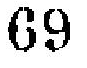69
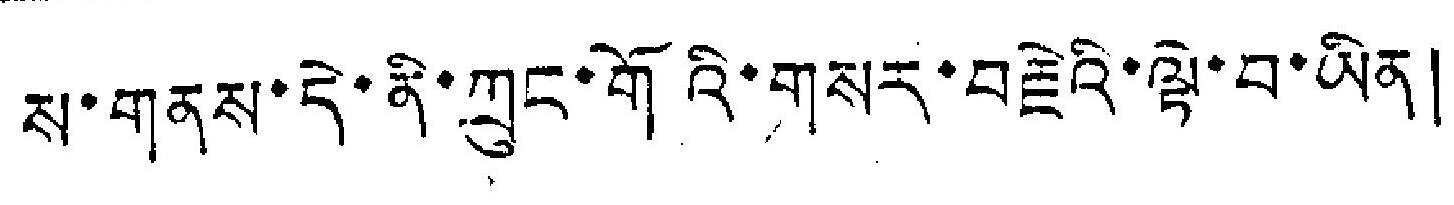ས་གནས་དེ་ནི་ཀྲུང་གོའི་གསར་བརྗེའི་ལྟེ་བ་ཡིན།
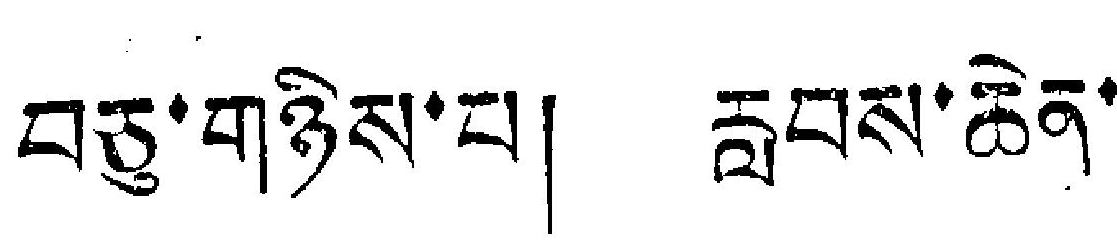བཅུ་གཉིས་པ། རླབས་ཆེན་
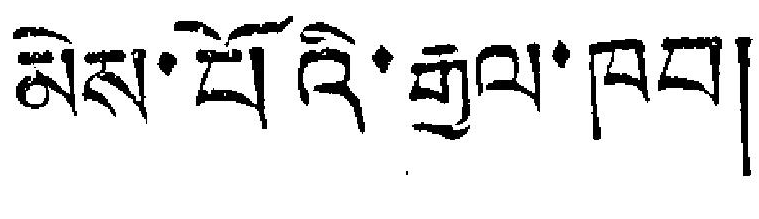མེས་པོའི་རྒྱལ་ཁབ།
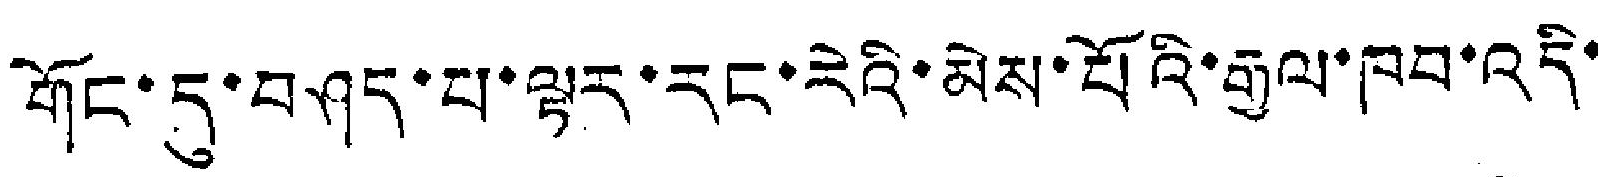གོང་དུ་བཤད་པ་ལྟར་རང་རེའི་མེས་པོའི་རྒྱལ་ཁབ་འདི་
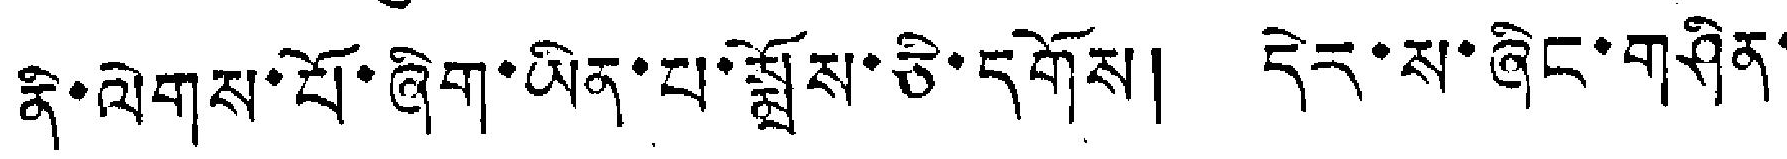ནི་ལེགས་པོ་ཞིག་ཡིན་པ་སྨྲོས་ཅི་དགོས། དེར་ས་ཞིང་གཤིན་
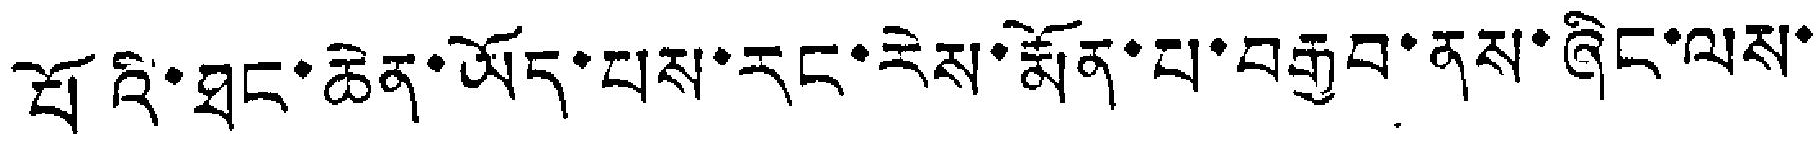པོའི་ཐང་ཆེན་ཡོད་པས་རང་རེས་རྨོན་པ་བརྒྱབ་ནས་ཞིང་ལས་
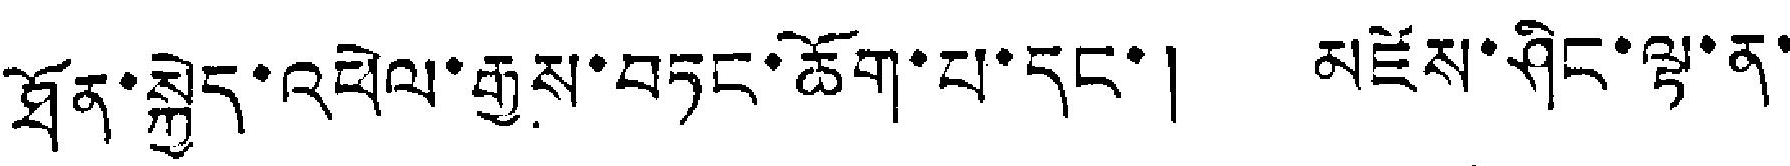ཐོན་སྐྱེད་འཕེལ་རྒྱས་བཏང་ཆོག་པ་དང་། མཛེས་ཤིང་ལྟ་ན་
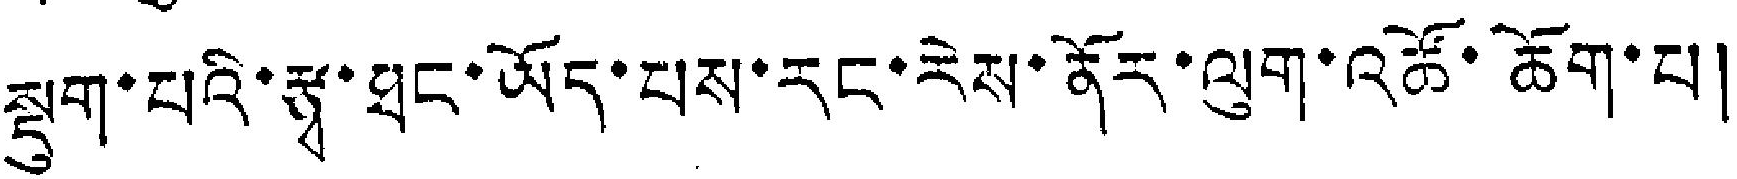སྡུག་པའི་རྩྭ་ཐང་ཡོད་པས་རང་རེས་ནོར་ལུག་འཚོ་ཆོག་པ།
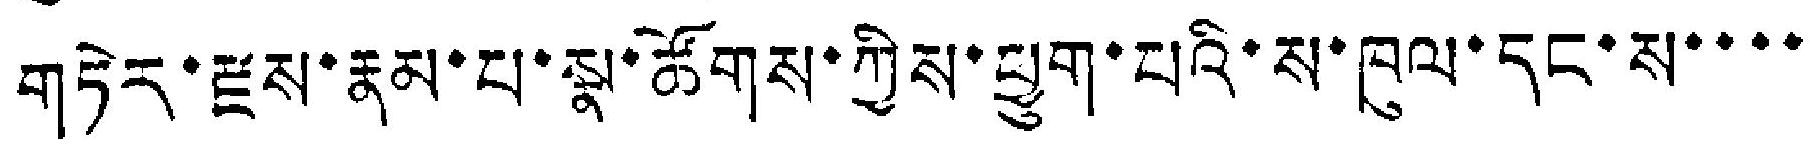གཏེར་རྫས་རྣམ་པ་སྣ་ཚོགས་ཀྱིས་ཕྱུག་པའི་ས་ཁུལ་དང་ས་་་་
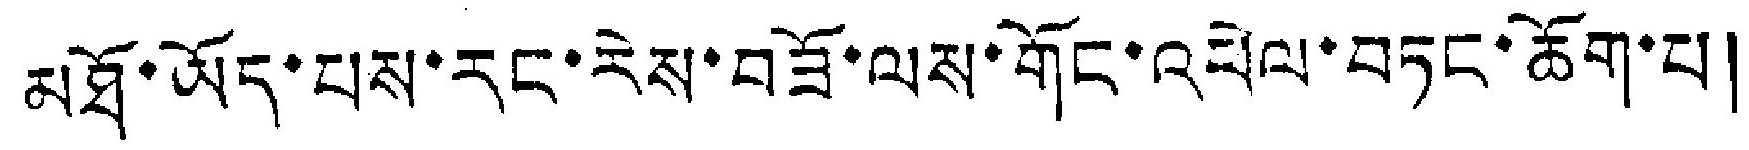མཐོ་ཡོད་པས་རང་རེས་བཟོ་ལས་གོང་འཕེལ་བཏང་ཆོག་པ།
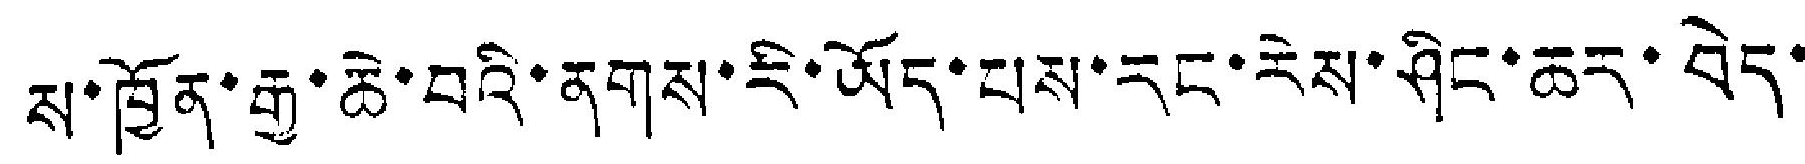ས་ཁྱོན་རྒྱ་ཆེ་བའི་ནགས་རི་ཡོད་པས་རང་རེས་ཤིང་ཆར་བེད་
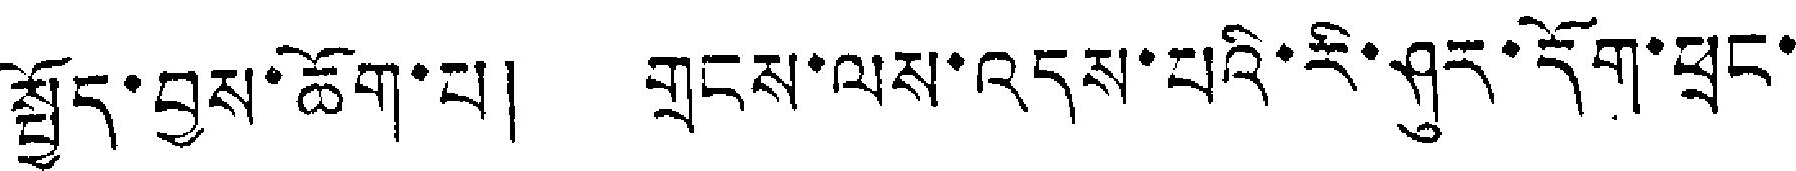སྤྱོད་བྱས་ཆོག་པ། གྲངས་ལས་འདས་པའི་རི་ཤུར་དོག་ཕྲང་
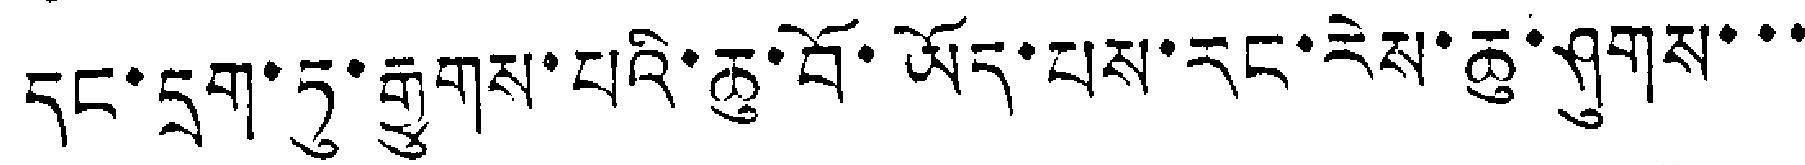དང་དྲག་ཏུ་རྒྱུགས་པའི་ཆུ་བོ་ཡོད་པས་རང་རེས་ཆུ་ཤུགས་་་
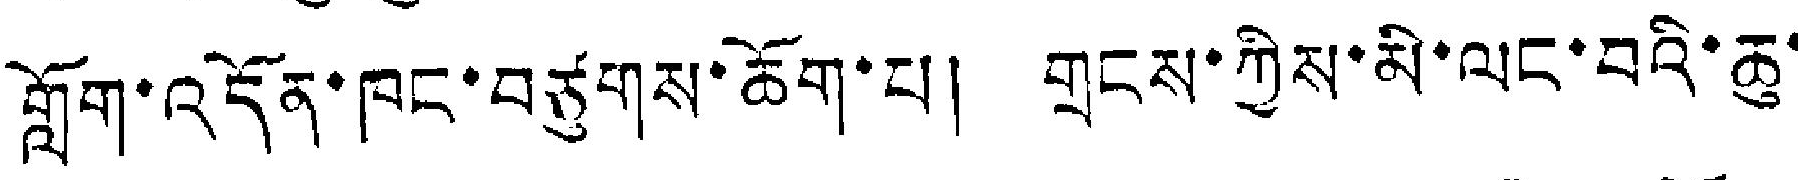ཀློག་འདོན་ཁང་བཙུགས་ཆོག་པ། གྲངས་ཀྱིས་མི་ལང་བའི་ཆུ་
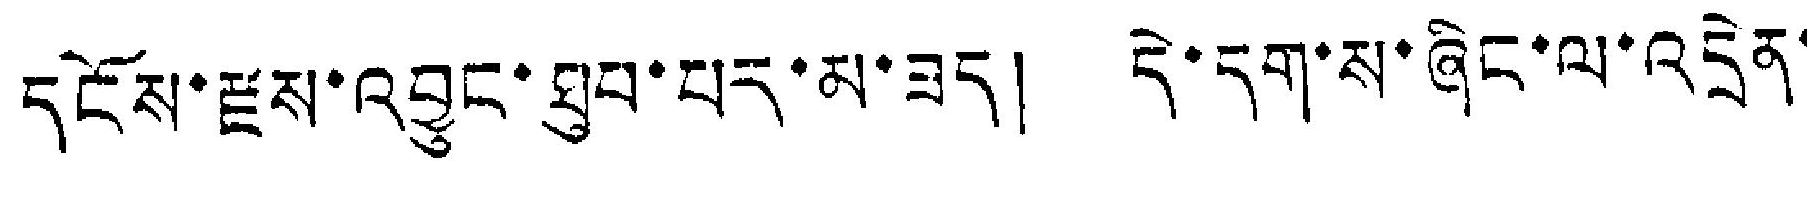དངོས་རྫས་འབྱུང་ཐུབ་པར་མ་ཟད། དེ་དག་ས་ཞིང་ལ་འདྲེན་
